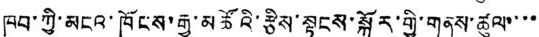ཁབ་ཀྱི་མངའ་ཁོངས་རྒྱ་མཚོའི་རྩིས་སྟངས་སྐོར་གྱི་གནས་ཚུལ་་་་
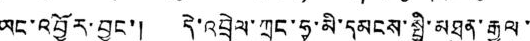ཡང་འབྱོར་བྱུང་། དེ་འབྲེལ་ཀྲུང་ཧྭ་མི་དམངས་སྤྱི་མཐུན་རྒྱལ་
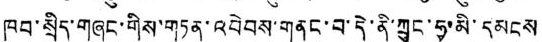ཁབ་སྲིད་གཞུང་གིས་གཏན་འབེབས་གནང་བ་དེ་ནི་ཀྲུང་ཧྭ་མི་དམངས
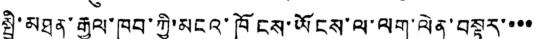སྤྱི་མཐུན་རྒྱལ་ཁབ་ཀྱི་མངའ་ཁོངས་ཡོངས་ལ་ལག་ལེན་བསྟར་་་་
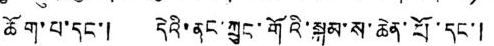ཆོག་པ་དང་། དེའི་ནང་ཀྲུང་གོའི་སྐམ་ས་ཆེན་པོ་དང་།
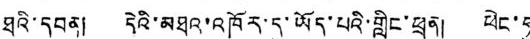ཐའི་དབན། དེའི་མཐའ་འཁོར་དུ་ཡོད་པའི་གླིང་ཕྲན། ཕེང་ཧུ
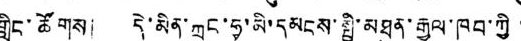གླིང་ཚོགས། དེ་མིན་ཀྲུང་ཧྭ་མི་དམངས་སྤྱི་མཐུན་རྒྱལ་ཁབ་ཀྱི་
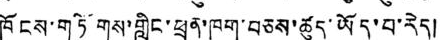ཁོངས་གཏོགས་གླིང་ཕྲན་ཁག་བཅས་ཚུད་ཡོད་པ་རེད།
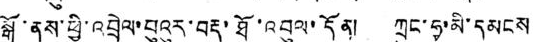སྒོ་ནས་ཕྱི་འབྲེལ་བུའུར་བརྡ་ཐོ་འབུལ་དོན། ཀྲུང་ཧྭ་མི་དམངས
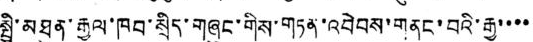སྤྱི་མཐུན་རྒྱལ་ཁབ་སྲིད་གཞུང་གིས་གཏན་འབེབས་གནང་བའི་རྒྱ་་་་
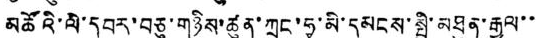མཚོའི་ལེ་དབར་བཅུ་གཉིས་ཚུན་ཀྲུང་ཧྭ་མི་དམངས་སྤྱི་མཐུན་རྒྱལ་་
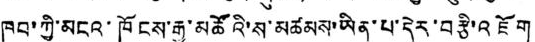ཁབ་ཀྱི་མངའ་ཁོངས་རྒྱ་མཚོའི་ས་མཚམས་ཡིན་པ་དེར་བརྩི་འཇོག
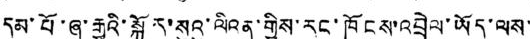དམ་པོ་ཞུ་རྒྱུའི་སྐོར་སུའུ་ལིའན་གྱིས་རང་ཁོངས་འབྲེལ་ཡོད་ལས་
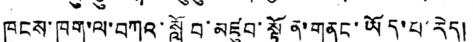ཁུངས་ཁག་ལ་བཀའ་སློབ་མཛུབ་སྟོན་གནང་ཡོད་པ་རེད།
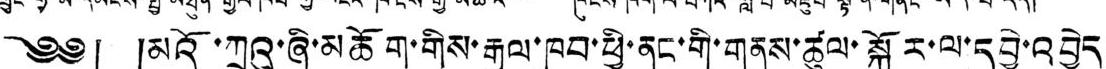༄༅། །མའོ་ཀྲུའུ་ཞི་མཆོག་གིས་རྒྱལ་ཁབ་ཕྱི་ནང་གི་གནས་ཚུལ་སྐོར་ལ་དབྱེ་འབྱེད
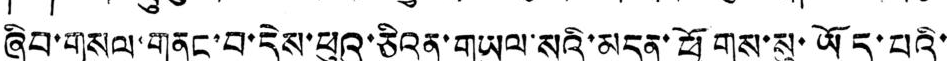ཞིབ་གསལ་གནང་བ་དེས་ཕུའུ་ཅིའན་གཡུལ་སའི་མདུན་ཕྱོགས་སུ་ཡོད་པའི་
